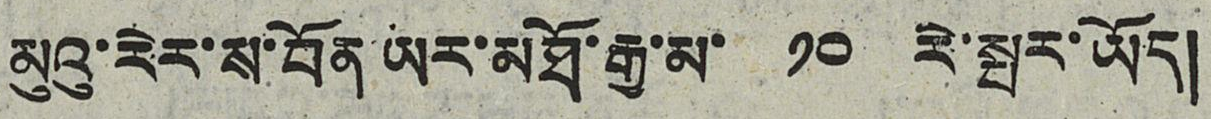མུའུ་རེར་ས་བོན ཡར་མཐོ་རྒྱུ་མ་ ༡༠ རེ་སྤར་ཡོད།
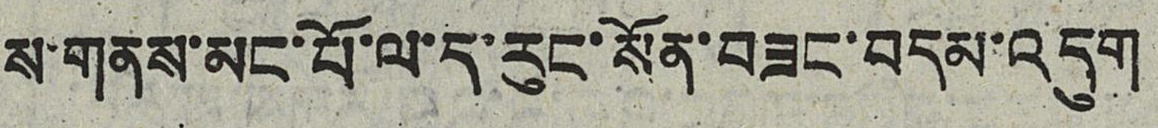ས་གནས་མང་པོ་ལ་ད་རུང་སོན་བཟང་བདམ་འདུག
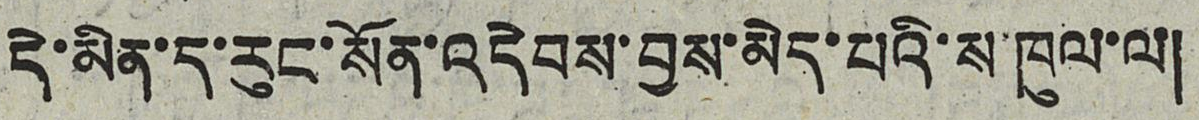དེ་མིན་ད་རུང་སོན་འདེབས་བྱས་མེད་པའི་ས་ཁུལ་ལ།
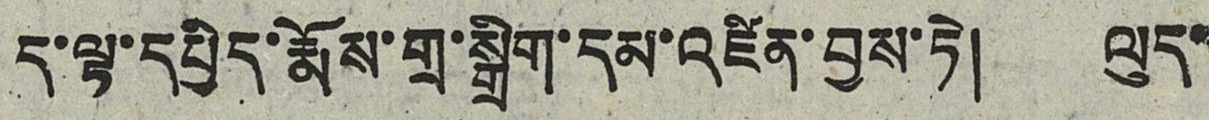ད་ལྟ་དཔྱིད་རྨོས་གྲ་སྒྲིག་དམ་འཛིན་བྱས་ཏེ། ལུད་
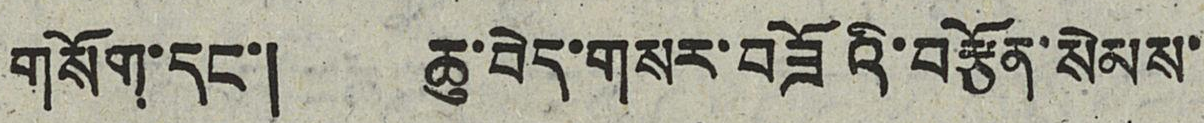གསོག་དང་། ཆུ་བེད་གསར་བཟོའི་བརྩོན་སེམས་
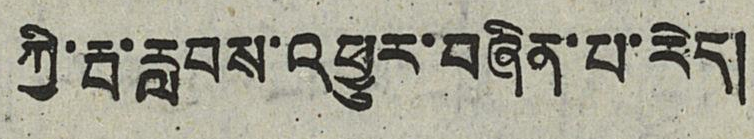ཀྱི་རྦ་རླབས་འཕྱུར་བཞིན་པ་རེད།
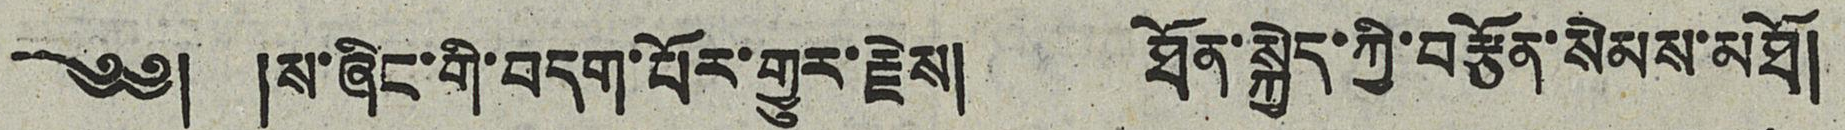༄༅། །ས་ཞིང་གི་བདག་པོར་གྱུར་རྗེས། ཐོན་སྐྱེད་ཀྱི་བརྩོན་སེམས་མཐོ།
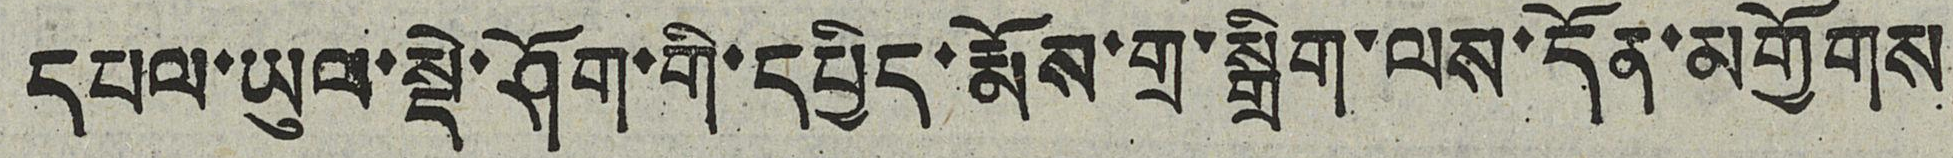དཔལ་ཡུལ་སྡེ་ཤོག་གི་དཔྱིད་རྨོས་གྲ་སྒྲིག་ལས་དོན་མགྱོགས
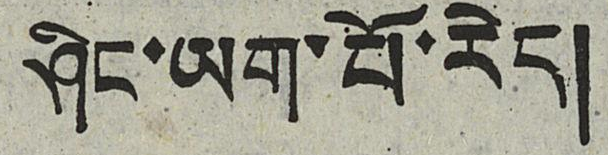ཤིང་ཡག་པོ་རེད།
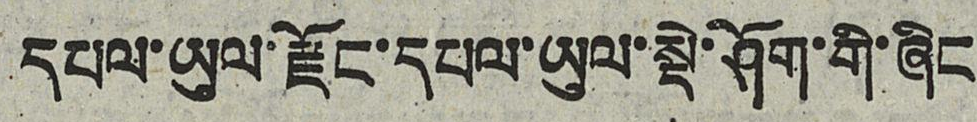དཔལ་ཡུལ་རྫོང་དཔལ་ཡུལ་སྡེ་ཤོག་གི་ཞིང
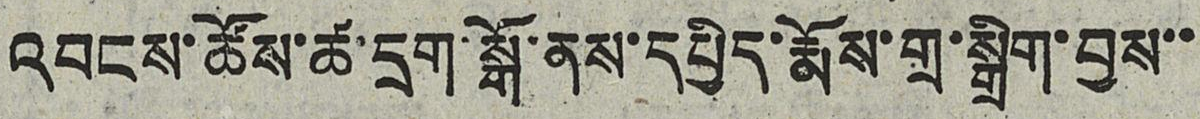འབངས་ཚོས་ཚ་དྲག་སྒོ་ནས་དཔྱིད་རྨོས་གྲ་སྒྲིག་བྱས་་
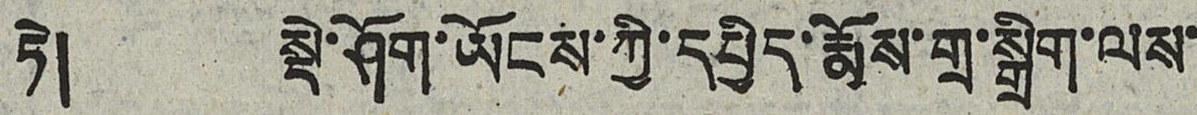ཏེ། སྡེ་ཤོག་ཡོངས་ཀྱི་དཔྱིད་རྨོས་གྲ་སྒྲིག་ལས་
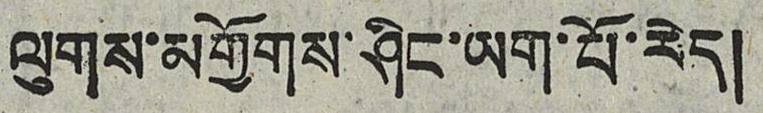ལུགས་མགྱོགས་ཤིང་ཡག་པོ་རེད།
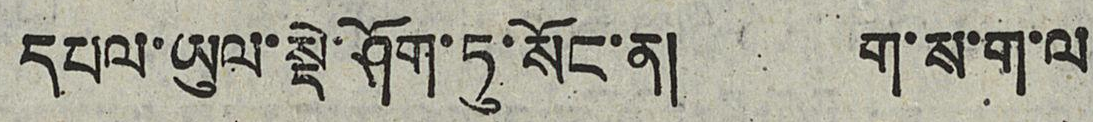དཔལ་ཡུལ་སྡེ་ཤོག་ཏུ་སོང་ན། ག་ས་ག་ལ་
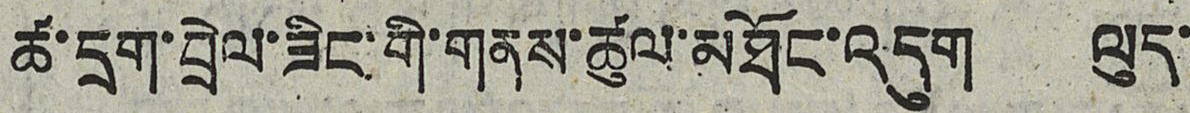ཚ་དྲག་བྲེལ་ཟིང་གི་གནས་ཚུལ་མཐོང་འདུག ལུད་
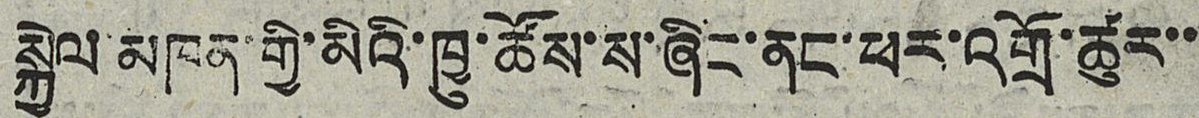སྐྱེལ་མཁན་གྱི་མིའི་ཁྱུ་ཚོས་ས་ཞིང་ནང་ཕར་འགྲོ་ཚུར་་
